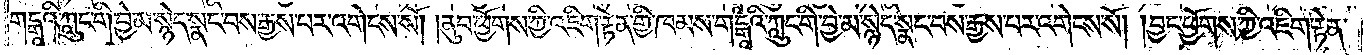གངྒཱའི་ཀླུང་གི་བྱེ་མ་སྙེད་སྣང་བས་རྒྱས་པར་འགེངས་སོ། །ནུབ་ཕྱོགས་ཀྱི་འཇིག་རྟེན་གྱི་ཁམས་གངྒཱའི་ཀླུང་གི་བྱེ་མ་སྙེད་སྣང་བས་རྒྱས་པར་འགེངས་སོ། །བྱང་ཕྱོགས་ཀྱི་འཇིག་རྟེན་
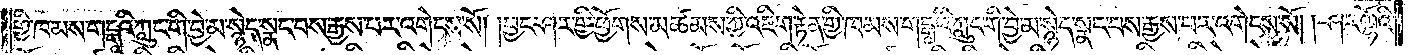གྱི་ཁམས་གངྒཱའི་ཀླུང་གི་བྱེ་མ་སྙེད་སྣང་བས་རྒྱས་པར་འགེངས་སོ། །བྱང་ཤར་གྱི་ཕྱོགས་མཚམས་ཀྱི་འཇིག་རྟེན་གྱི་ཁམས་གངྒཱའི་ཀླུང་གི་བྱེ་མ་སྙེད་སྣང་བས་རྒྱས་པར་འགེངས་སོ། །ཤར་ལྷོའི་
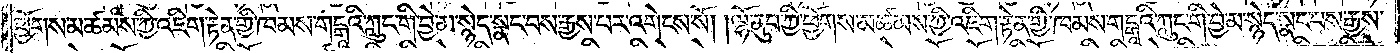ཕྱོགས་མཚམས་ཀྱི་འཇིག་རྟེན་གྱི་ཁམས་གངྒཱའི་ཀླུང་གི་བྱེ་མ་སྙེད་སྣང་བས་རྒྱས་པར་འགེངས་སོ། །ལྷོ་ནུབ་ཀྱི་ཕྱོགས་མཚམས་ཀྱི་འཇིག་རྟེན་གྱི་ཁམས་གངྒཱའི་ཀླུང་གི་བྱེ་མ་སྙེད་སྣང་བས་རྒྱས་
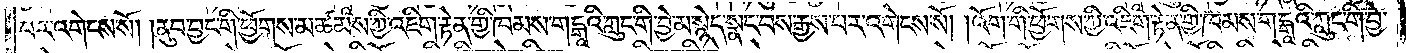པར་འགེངས་སོ། །ནུབ་བྱང་གི་ཕྱོགས་མཚམས་ཀྱི་འཇིག་རྟེན་གྱི་ཁམས་གངྒཱའི་ཀླུང་གི་བྱེ་མ་སྙེད་སྣང་བས་རྒྱས་པར་འགེངས་སོ། །འོག་གི་ཕྱོགས་ཀྱི་འཇིག་རྟེན་གྱི་ཁམས་གངྒཱའི་ཀླུང་གི་བྱེ་
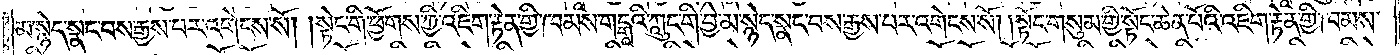མ་སྙེད་སྣང་བས་རྒྱས་པར་འགེངས་སོ། །སྟེང་གི་ཕྱོགས་ཀྱི་འཇིག་རྟེན་གྱི་ཁམས་གངྒཱའི་ཀླུང་གི་བྱེ་མ་སྙེད་སྣང་བས་རྒྱས་པར་འགེངས་སོ། །སྟོང་གསུམ་གྱི་སྟོང་ཆེན་པོའི་འཇིག་རྟེན་གྱི་ཁམས་
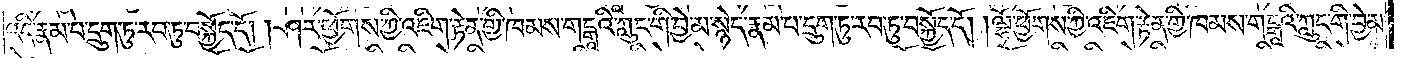འདི་རྣམ་པ་དྲུག་ཏུ་རབ་ཏུ་བསྐྱོད་དོ། །ཤར་ཕྱོགས་ཀྱི་འཇིག་རྟེན་གྱི་ཁམས་གངྒཱའི་ཀླུང་གི་བྱེ་མ་སྙེད་རྣམ་པ་དྲུག་ཏུ་རབ་ཏུ་བསྐྱོད་དོ། །ལྷོ་ཕྱོགས་ཀྱི་འཇིག་རྟེན་གྱི་ཁམས་གངྒཱའི་ཀླུང་གི་བྱེ་མ་
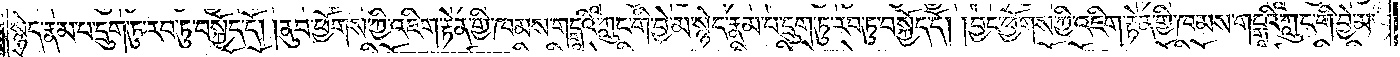སྙེད་རྣམ་པ་དྲུག་ཏུ་རབ་ཏུ་བསྐྱོད་དོ། །ནུབ་ཕྱོགས་ཀྱི་འཇིག་རྟེན་གྱི་ཁམས་གངྒཱའི་ཀླུང་གི་བྱེ་མ་སྙེད་རྣམ་པ་དྲུག་ཏུ་རབ་ཏུ་བསྐྱོད་དོ། །བྱང་ཕྱོགས་ཀྱི་འཇིག་རྟེན་གྱི་ཁམས་གངྒཱའི་ཀླུང་གི་བྱེ་མ་
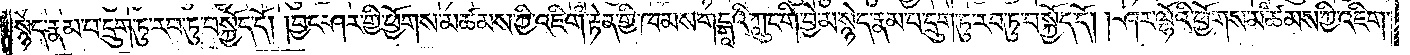སྙེད་རྣམ་པ་དྲུག་ཏུ་རབ་ཏུ་བསྐྱོད་དོ། །བྱང་ཤར་གྱི་ཕྱོགས་མཚམས་ཀྱི་འཇིག་རྟེན་གྱི་ཁམས་གངྒཱའི་ཀླུང་གི་བྱེ་མ་སྙེད་རྣམ་པ་དྲུག་ཏུ་རབ་ཏུ་བསྐྱོད་དོ། །ཤར་ལྷོའི་ཕྱོགས་མཚམས་ཀྱི་འཇིག་
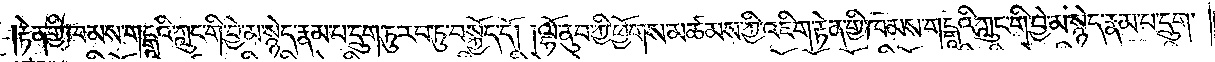རྟེན་གྱི་ཁམས་གངྒཱའི་ཀླུང་གི་བྱེ་མ་སྙེད་རྣམ་པ་དྲུག་ཏུ་རབ་ཏུ་བསྐྱོད་དོ། །ལྷོ་ནུབ་ཀྱི་ཕྱོགས་མཚམས་ཀྱི་འཇིག་རྟེན་གྱི་ཁམས་གངྒཱའི་ཀླུང་གི་བྱེ་མ་སྙེད་རྣམ་པ་དྲུག་
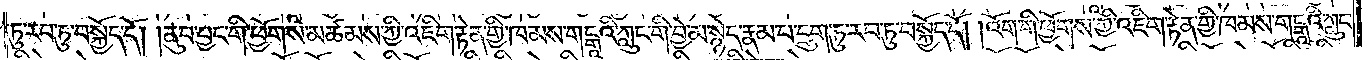ཏུ་རབ་ཏུ་བསྐྱོད་དོ། །ནུབ་བྱང་གི་ཕྱོགས་མཚམས་ཀྱི་འཇིག་རྟེན་གྱི་ཁམས་གངྒཱའི་ཀླུང་གི་བྱེ་མ་སྙེད་རྣམ་པ་དྲུག་ཏུ་རབ་ཏུ་བསྐྱོད་དོ། །འོག་གི་ཕྱོགས་ཀྱི་འཇིག་རྟེན་གྱི་ཁམས་གངྒཱའི་ཀླུང་
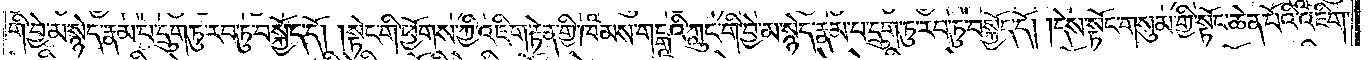གི་བྱེ་མ་སྙེད་རྣམ་པ་དྲུག་ཏུ་རབ་ཏུ་བསྐྱོད་དོ། །སྟེང་གི་ཕྱོགས་ཀྱི་འཇིག་རྟེན་གྱི་ཁམས་གངྒཱའི་ཀླུང་གི་བྱེ་མ་སྙེད་རྣམ་པ་དྲུག་ཏུ་རབ་ཏུ་བསྐྱོད་དོ། །དེས་སྟོང་གསུམ་གྱི་སྟོང་ཆེན་པོའི་འཇིག་
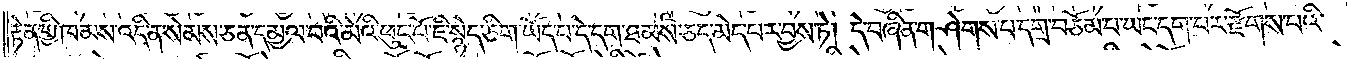རྟེན་གྱི་ཁམས་འདི་ན་སེམས་ཅན་དམྱལ་བའི་མེའི་ཕུང་པོ་ཇི་སྙེད་ཅིག་ཡོད་པ་དེ་དག་ཐམས་ཅད་མེད་པར་བྱས་ཏེ། དེ་བཞིན་གཤེགས་པ་དགྲ་བཅོམ་པ་ཡང་དག་པར་རྫོགས་པའི་
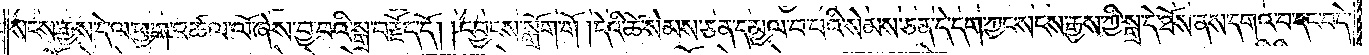སངས་རྒྱས་དེ་ལ་ཕྱག་འཚལ་ལོ་ཞེས་བྱ་བའི་སྒྲ་བརྗོད་དོ། །དབྱངས་སྒྲོག་གོ །དེའི་ཚེ་སེམས་ཅན་དམྱལ་བ་པའི་སེམས་ཅན་དེ་དག་ཀྱང་སངས་རྒྱས་ཀྱི་སྒྲ་དེ་ཐོས་ནས་དགའ་བ་དང་བདེ་
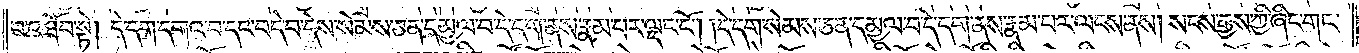བ་འཐོབ་སྟེ། དེ་དག་དགའ་བ་དང་བདེ་བ་དེས་སེམས་ཅན་དམྱལ་བ་དེ་དག་ནས་རྣམ་པར་ལྡང་ངོ༌། །དེ་དག་སེམས་ཅན་དམྱལ་བ་དེ་དག་ནས་རྣམ་པར་ལངས་ནས། སངས་རྒྱས་ཀྱི་ཞིང་གང་
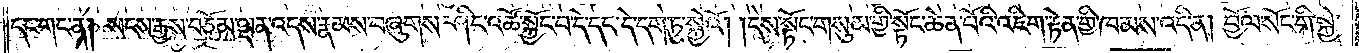དང་གང་ན། སངས་རྒྱས་བཅོམ་ལྡན་འདས་རྣམས་བཞུགས་ཤིང་འཚོ་སྐྱོང་བ་དེ་དང་དེ་དག་ཏུ་སྐྱེའོ། །དེས་སྟོང་གསུམ་གྱི་སྟོང་ཆེན་པོའི་འཇིག་རྟེན་གྱི་ཁམས་འདི་ན། བྱོལ་སོང་གི་སྐྱེ་
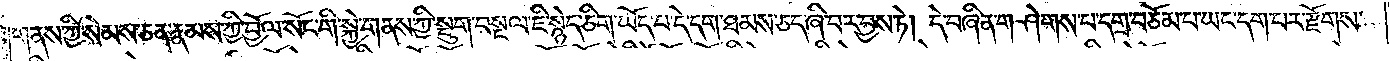གནས་ཀྱི་སེམས་ཅན་རྣམས་ཀྱི་བྱོལ་སོང་གི་སྐྱེ་གནས་ཀྱི་སྡུག་བསྔལ་ཇི་སྙེད་ཅིག་ཡོད་པ་དེ་དག་ཐམས་ཅད་ཞི་བར་བྱས་ཏེ། དེ་བཞིན་གཤེགས་པ་དགྲ་བཅོམ་པ་ཡང་དག་པར་རྫོགས་
